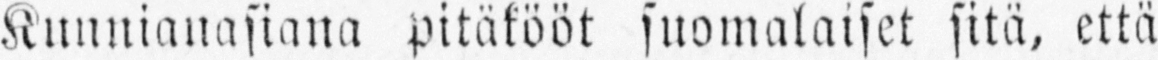Kunnianasiana pitäkööt suomalaiset sitä, että
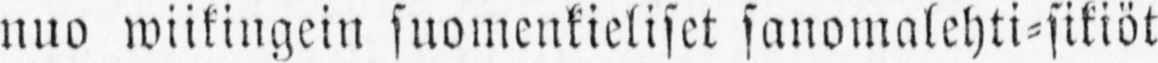nuo wiikingein suomenkieliset sanomalehti-sikiöt
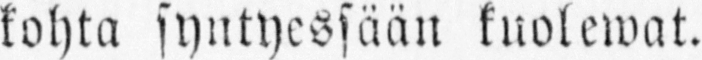kohta syntyessään kuolewat.
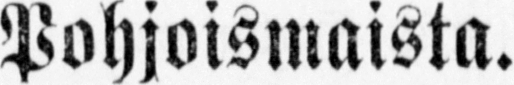Pohjoismaista.
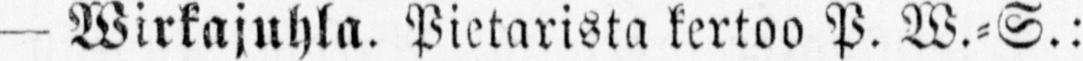— Wirkajuhla. Pietarista kertoo P. W.-S.:
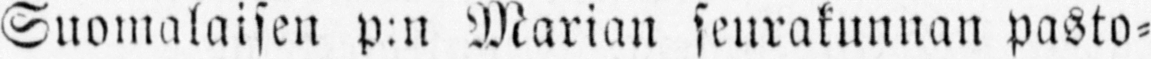Suomalaisen p:n Marian seurakunnan pasto-
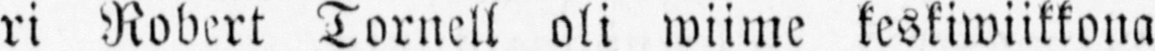ri Robert Tornell oli wiime keskiwiikkona
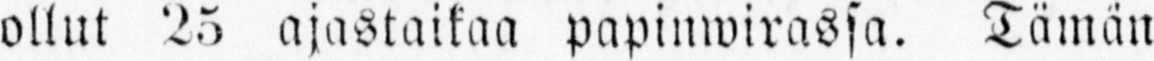ollut 25 ajastaikaa papinwirassa. Tämän
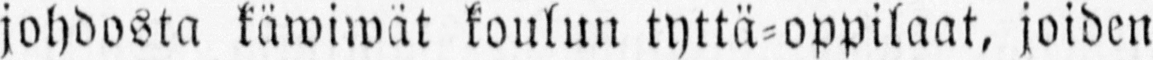johdosta käwiwät koulun tyttä-oppilaat, joiden
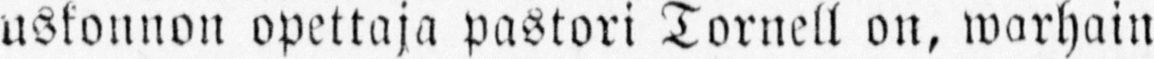uskonnon opettaja pastori Tornell on, warhain
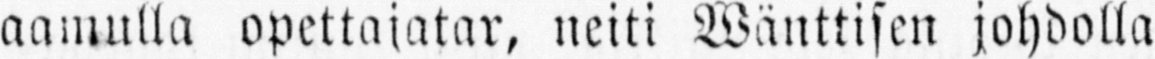aamulla opettajatar, neiti Wänttisen johdolla
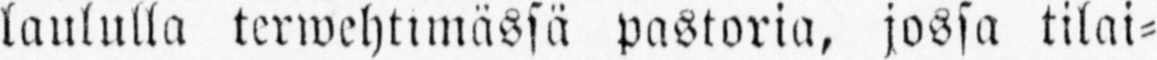laululla terwehtimässä pastoria, jossa tilai-
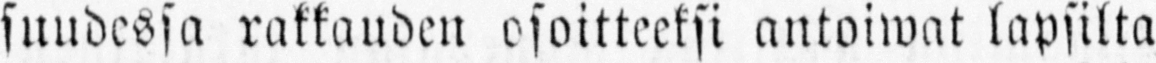suudessa rakkauden osoitteeksi antoiwat lapsilta
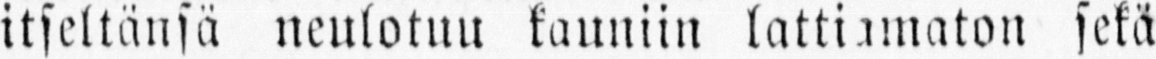itseltänsä neulotun kauniin lattiamaton sekä
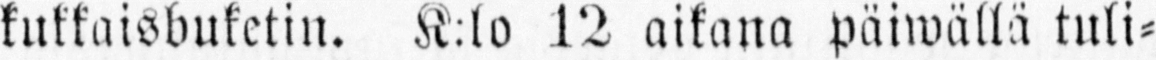kukkaisbuketin. K:lo 12 aikana päiwällä tuli-
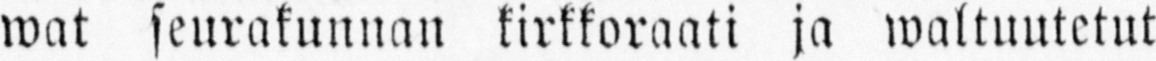wat seurakunnan kirkkoraati ja waluutetut
